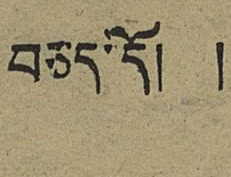བཅད་དོ། །
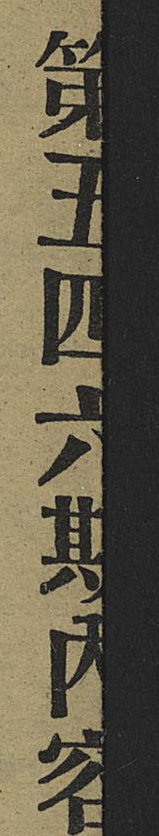第五四六期內容
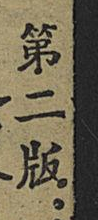第二版：
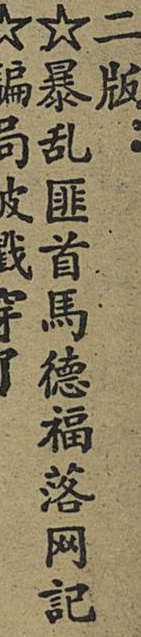☆暴乱匪首馬德福落网記
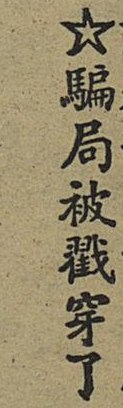☆騙局被戳穿了
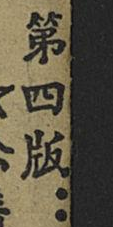第四版：
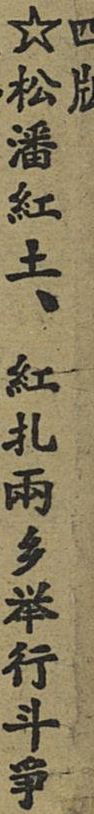☆松潘紅土、紅扎兩乡举行斗爭
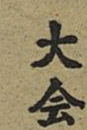大会
